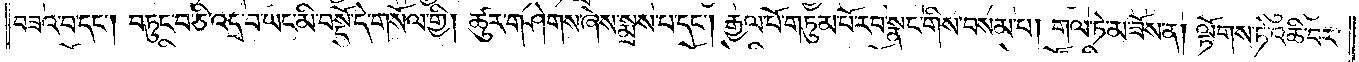བཟའ་བ་དང༌། བཏུང་བ་ཅི་འདྲ་བ་ཡང་མི་བསྡོ་དེ་གསོལ་གྱི། ཚུར་གཤེགས་ཞེས་སྨྲས་པ་དང༌། རྒྱལ་པོ་གཏུམ་པོ་རབ་སྣང་གིས་བསམ་པ། གལ་ཏེ་མ་ཟོས་ན། ལྟོགས་ཏེ་འཆི་བར་
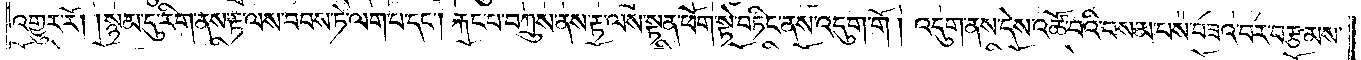འགྱུར་རོ། །སྙམ་དུ་རིག་ནས་རྟ་ལས་བབས་ཏེ་ལག་པ་དང༌། རྐང་པ་བཀྲུས་ནས་རྟ་ལས་སྟན་ཕོག་སྟེ་བཏིང་ནས་འདུག་གོ། འདུག་ནས་དེས་འཚོ་བའི་བསམ་པས་བཟའ་བར་བརྩམས་
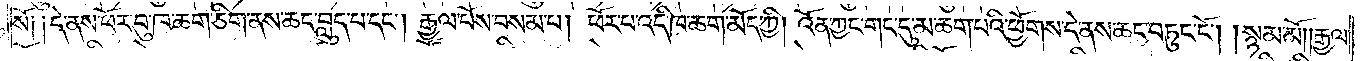སོ༑ ༑དེ་ནས་ཕོར་བུ་ཁ་ཆག་ཅིག་ནས་ཆང་བླུད་པ་དང༌། རྒྱལ་པོས་བསམ་པ། ཕོར་པ་འདི་ཁ་ཆག་མོད་ཀྱི། འོན་ཀྱང་གང་དུ་མ་ཆག་པའི་ཕྱོགས་དེ་ནས་ཆང་བཏུང་ངོ༌། །སྙམ་མོ༎རྒྱལ་
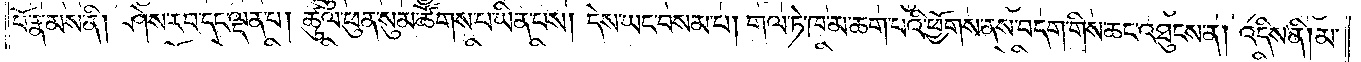པོ་རྣམས་ནི། ཤེས་རབ་དང་ལྡན་པ། ཚུལ་ཕུན་སུམ་ཚོགས་པ་ཡིན་པས། དེས་ཡང་བསམ་པ། གལ་ཏེ་ཁ་མ་ཆག་པའི་ཕྱོགས་ནས་བདག་གིས་ཆང་འཐུངས་ན། འདིས་ནི། མ་
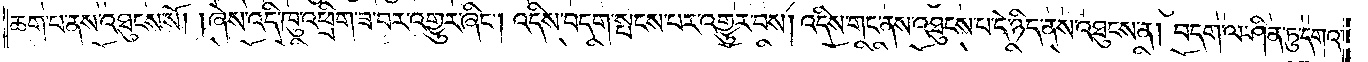ཆག་པ་ནས་འཐུངས་སོ། །ཞེས་འདི་ཁུ་འཕྲིག་ཟ་བར་འགྱུར་ཞིང༌། འདིས་བདག་སྤངས་པར་འགྱུར་བས། འདིས་གང་ནས་འཐུངས་པ་དེ་ཉིད་ནས་འཐུངས་ན། བདག་ལ་ཤིན་ཏུ་དགའ་
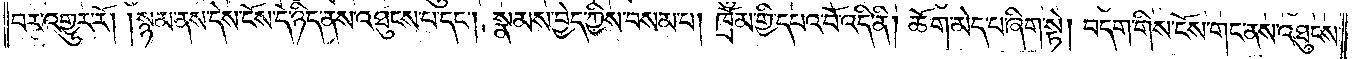བར་འགྱུར་རོ། །སྙམ་ནས་དེས་ངོས་དེ་ཉིད་ནས་འཐུངས་པ་དང༌། སྣམས་བྱེད་ཀྱིས་བསམ་པ། ཁྲོམ་གྱི་དཔའ་བོ་འདི་ནི། ཆོག་མེད་པ་ཞིག་སྟེ། བདག་གིས་ངོས་གང་ནས་འཐུངས་
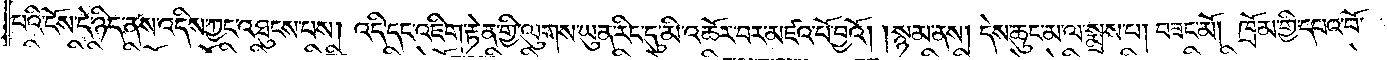པའི་ངོས་དེ་ཉིད་ནས་འདིས་ཀྱང་འཐུངས་པས། འདི་དང་འཇིག་རྟེན་གྱི་ལུགས་ཡུན་རིང་དུ་མི་འཆོར་བར་མཛའ་པོ་བྱའོ། །སྙམ་ནས། དེས་ཆུང་མ་ལ་སྨྲས་པ། བཟང་མོ། ཁྲོམ་གྱི་དཔའ་བོ་
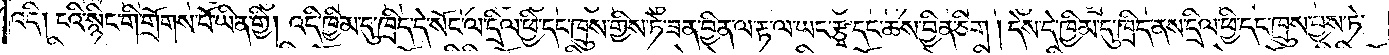འདི། ངའི་སྙིང་གི་གྲོགས་པོ་ཡིན་གྱི། འདི་ཁྱིམ་དུ་ཁྲིད་དེ་སོང་ལ་དྲིལ་ཕྱི་དང་ཁྲུས་གྱིས་ཏེ་ཟན་བྱིན་ལ་རྟ་ལ་ཡང་རྩྭ་དང་ཆས་བྱིན་ཅིག །དེས་དེ་ཁྱིམ་དུ་ཁྲིད་ནས་དྲིལ་ཕྱི་དང་ཁྲུས་བྱས་ཏེ་
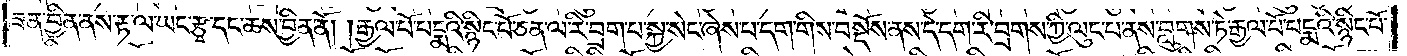ཟན་བྱིན་ནས་རྟ་ལ་ཡང་རྩྭ་དང་ཆས་བྱིན་ནོ། །རྒྱལ་པོ་པདྨའི་སྙིང་པོ་ཅན་ལ་རི་བྲག་པ་སྐྱ་སེང་ཞེས་པ་དག་གིས་བསྡོས་ནས་དེ་དག་རི་བྲགས་ཀྱི་ལུང་པ་ནས་བླུགས་ཏེ་རྒྱལ་པོ་པདྨའི་སྙིང་པོ་
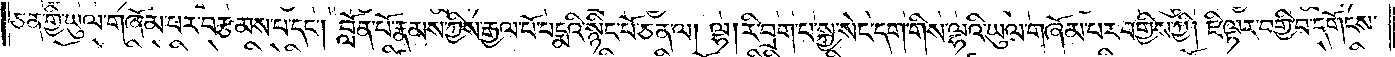ཅན་གྱི་ཡུལ་གཞོམ་པར་བརྩམས་པ་དང༌། བློན་པོ་རྣམས་ཀྱིས་རྒྱལ་པོ་པདྨའི་སྙིང་པོ་ཅན་ལ། ལྷ། རི་བྲག་པ་སྐྱ་སེང་དག་གིས་ལྷའི་ཡུལ་གཞོམ་པར་བགྱིས་ཀྱི། ཇི་ལྟར་བགྱི་བ་དགོངས་
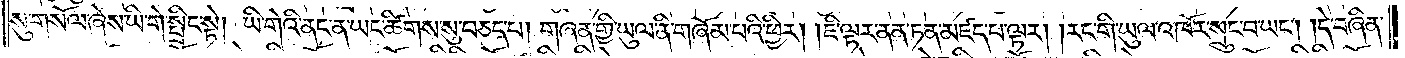སུ་གསོལ་ཞེས་ཡི་གེ་སྤྲིང་སྟེ། ཡི་གེའི་ནང་ན་ཡང་ཚིགས་སུ་བཅད་པ། གཞན་གྱི་ཡུལ་ནི་གཞོམ་པའི་ཕྱིར། །ཇི་ལྟར་ནན་ཏན་མཛད་པ་ལྟར། །རང་གི་ཡུལ་འཁོར་སྲུང་བ་ཡང༌། །དེ་བཞིན་
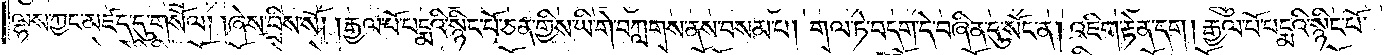ལྷས་ཀྱང་མཛད་དུ་གསོལ། །ཞེས་བྲིས་སོ། །རྒྱལ་པོ་པདྨའི་སྙིང་པོ་ཅན་གྱིས་ཡི་གེ་བཀླགས་ནས་བསམ་པ། གལ་ཏེ་བདག་དེ་བཞིན་དུ་སོང་ན། འཇིག་རྟེན་དག། རྒྱལ་པོ་པདྨའི་སྙིང་པོ་
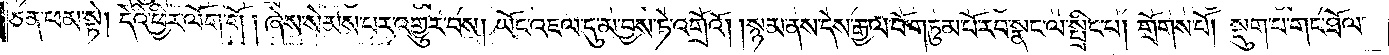ཅན་ཕམ་སྟེ། དེའི་ཕྱིར་ལོག་གོ། ཞེས་སེམས་པར་འགྱུར་བས། ཡོངས་འཇལ་དུ་མ་བྱས་ཏེ་འགྲོའོ། །སྙམ་ནས་དེས་རྒྱལ་པོ་གཏུམ་པོ་རབ་སྣང་ལ་སྤྲིང་པ། གྲོགས་པོ། སྡུག་པ་གང་ཐོལ་
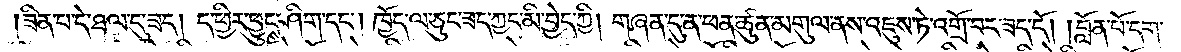ཟིན་པ་དེ་ཐལ་དུ་ཟད། ད་ཕྱིར་ཕྱུངས་ཤིག་དང༌། ཁྱོད་ལ་ཅུང་ཟད་ཀྱང་མི་བྱེད་ཀྱི། གཞན་དུ་ན་ཕན་ཚུན་མགུལ་ནས་འཇུས་ཏེ་འགྲོ་བར་ཟད་དོ། །བློན་པོ་དག་
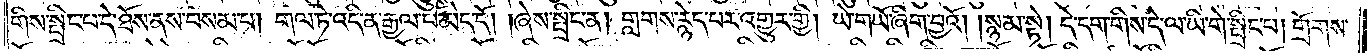གིས་སྤྲིང་པ་དེ་ཐོས་ནས་བསམ་པ། གལ་ཏེ་འདི་ན་རྒྱལ་པོ་མེད་དོ། །ཞེས་སྤྲིང་ན། གླགས་རྙེད་པར་འགྱུར་གྱི། ཡེ་གཡོ་ཞིག་བྱའོ། །སྙམ་སྟེ། དེ་དག་གིས་དེ་ལ་ཡི་གེ་སྤྲིང་པ། གྲོགས་
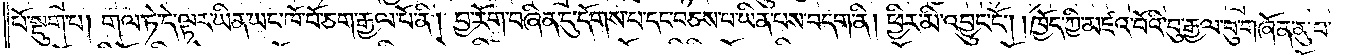པོ་སྡུག་པ། གལ་ཏེ་དེ་ལྟར་ཡིན་ཡང་ཁོ་བོ་ཅག་རྒྱལ་པོ་ནི། བྱ་རོག་བཞིན་དུ་དོགས་པ་དང་བཅས་པ་ཡིན་པས་བདག་ནི། ཕྱིར་མི་འབྱུང་ངོ༌། །ཁྱོད་ཀྱི་མཛའ་བོའི་བུ་རྒྱལ་བུ་གཞོན་ནུ་བ་
